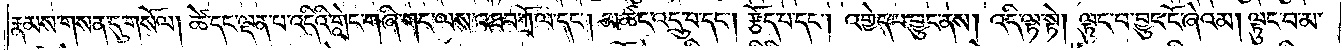རྣམས་གསན་དུ་གསོལ། ཚེ་དང་ལྡན་པ་འདིའི་གླེང་གཞི་གང་ལས་འཐབ་ཀྲོལ་དང༌། མཚང་འདྲུ་བ་དང༌། རྩོད་པ་དང༌། འགྱེད་པ་བྱུང་ནས། འདི་ལྟ་སྟེ། ལྟུང་བ་བྱུང་ངོ་ཞེའམ། ལྟུང་བ་མ་
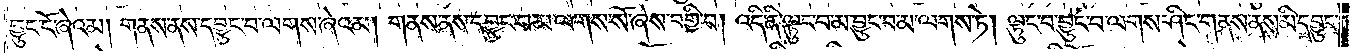བྱུང་ངོ་ཞེའམ། གནས་ནས་དབྱུང་བ་ལགས་ཞེའམ། གནས་ནས་དབྱུང་བ་མ་ལགས་སོ་ཞེས་བགྱི་བ། འདི་ནི་ལྟུང་བ་མ་བྱུང་བ་མ་ལགས་ཏེ། ལྟུང་བ་བྱུང་བ་ལགས་ཤིང་གནས་ནས་མི་དབྱུང་
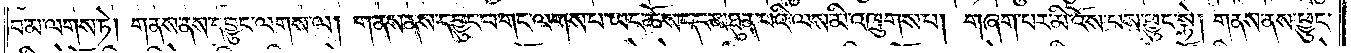བ་མ་ལགས་ཏེ། གནས་ནས་དབྱུང་ལགས་ལ། གནས་ནས་དབྱུང་བ་གང་ལགས་པ་ཡང་ཆོས་དང་མཐུན་པའི་ལས་མི་འཁྲུགས་པ། གཞག་པར་མི་འོས་པས་ཕྱུང་སྟེ། གནས་ནས་ཕྱུང་
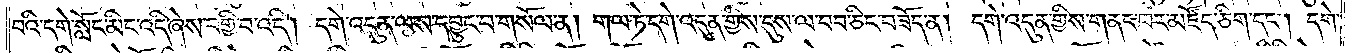བའི་དགེ་སློང་མིང་འདི་ཞེས་བགྱི་བ་འདི། དགེ་འདུན་ལས་དབྱུང་བ་གསོལ་ན། གལ་ཏེ་དགེ་འདུན་གྱིས་དུས་ལ་བབ་ཅིང་བཟོད་ན། དགེ་འདུན་གྱིས་གནང་བར་མཛོད་ཅིག་དང༌། དགེ་
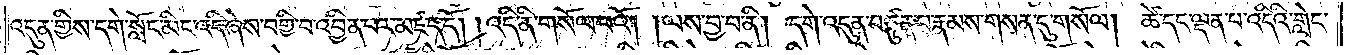འདུན་གྱིས་དགེ་སློང་མིང་འདི་ཞེས་བགྱི་བ་འབྱིན་པར་མཛད་དོ། །འདི་ནི་གསོལ་བའོ། །ལས་བྱ་བ་ནི། དགེ་འདུན་བཙུན་པ་རྣམས་གསན་དུ་གསོལ། ཚེ་དང་ལྡན་པ་འདིའི་གླེང་
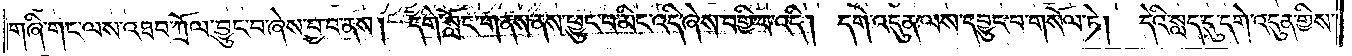གཞི་གང་ལས་འཐབ་ཀྲོལ་བྱུང་བ་ཞེས་བྱ་བ་ནས། དགེ་སློང་གནས་ནས་ཕྱུང་བ་མིང་འདི་ཞེས་བགྱི་བ་འདི། དགེ་འདུན་ལས་དབྱུང་བ་གསོལ་ཏེ།<gap>དེའི་སླད་དུ་དགེ་འདུན་གྱིས་
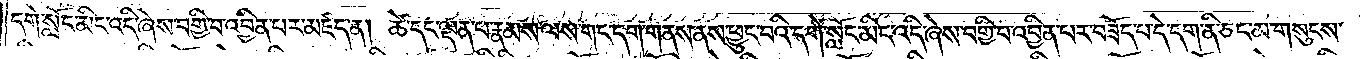དགེ་སློང་མིང་འདི་ཞེས་བགྱི་བ་འབྱིན་པར་མཛད་ན། ཚེ་དང་ལྡན་པ་རྣམས་ལས་གང་དག་གནས་ནས་ཕྱུང་བའི་དགེ་སློང་མིང་འདི་ཞེས་བགྱི་བ་འབྱིན་པར་བཟོད་པ་དེ་དག་ནི་ཅང་མ་གསུངས་
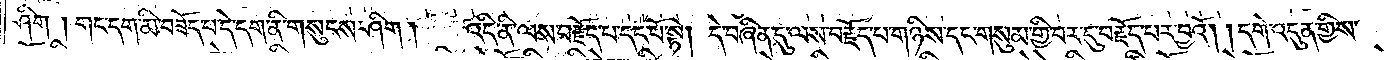ཤིག །གང་དག་མི་བཟོད་པ་དེ་དག་ནི་གསུངས་ཤིག  །འདི་ནི་ལས་བརྗོད་པ་དང་པོ་སྟེ། དེ་བཞིན་དུ་ལས་བརྗོད་པ་གཉིས་དང་གསུམ་གྱི་བར་དུ་བརྗོད་པར་བྱའོ། །དགེ་འདུན་གྱིས་
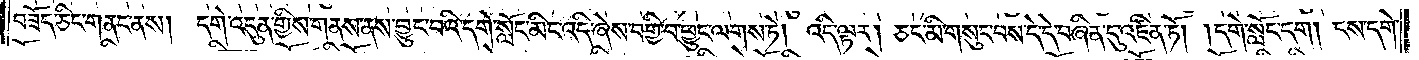བཟོད་ཅིང་གནང་ནས། དགེ་འདུན་གྱིས་གནས་ནས་བྱུང་བའི་དགེ་སློང་མིང་འདི་ཞེས་བགྱི་བ་ཕྱུང་ལགས་ཏེ། འདི་ལྟར། ཅང་མི་གསུང་བས་དེ་དེ་བཞིན་དུ་འཛིན་ཏོ། །དགེ་སློང་དག །ངས་དགེ་
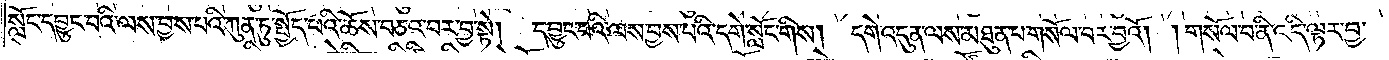སློང་དབྱུང་བའི་ལས་བྱས་པའི་ཀུན་ཏུ་སྤྱོད་པའི་ཆོས་བཅའ་བར་བྱ་སྟེ། དབྱུང་བའི་ལས་བྱས་པའི་དགེ་སློང་གིས། དགེ་འདུན་ལས་མཐུན་པ་གསོལ་བར་བྱའོ། །གསོལ་བ་ནི་འདི་ལྟར་བྱ་
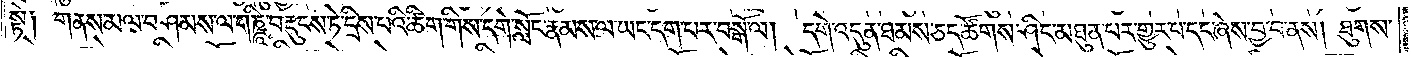སྟེ༑ གནས་མལ་བཤམས་ལ་གཎྜཱི་བརྡུངས་ཏེ་དྲིས་པའི་ཚིག་གིས་དགེ་སློང་རྣམས་ལ་ཡང་དག་པར་བསྒོ་ལ། དགེ་འདུན་ཐམས་ཅད་ཚོགས་ཤིང་མཐུན་པར་གྱུར་པ་དང་ཞེས་བྱ་བ་ནས། ཐུགས་
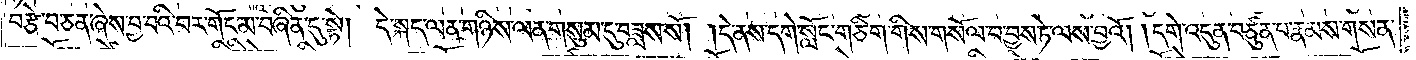བརྩེ་བ་ཅན་ཞེས་བྱ་བའི་བར་གོང་མ་བཞིན་དུ་སྟེ། དེ་སྐད་ལན་གཉིས་ལན་གསུམ་དུ་བཟླས་སོ། །དེ་ནས་དགེ་སློང་གཅིག་གིས་གསོལ་བ་བྱས་ཏེ་ལས་བྱའོ། །དགེ་འདུན་བཙུན་པ་རྣམས་གསན་
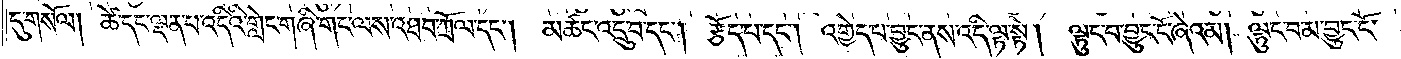དུ་གསོལ། ཚེ་དང་ལྡན་པ་འདིའི་གླེང་གཞི་གང་ལས་འཐབ་ཀྲོལ་དང༌། མཚང་འདྲུ་བ་དང༌། རྩོད་པ་དང༌། འགྱེད་པ་བྱུང་ནས་འདི་ལྟ་སྟེ། ལྟུང་བ་བྱུང་ངོ་ཞེའམ། ལྟུང་བ་མ་བྱུང་ངོ་
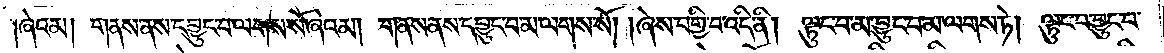།ཞེའམ། གནས་ནས་དབྱུང་བ་ལགས་སོ་ཞེའམ། གནས་ནས་དབྱུང་བ་མ་ལགས་སོ། །ཞེས་བགྱི་བ་འདི་ནི། ལྟུང་བ་མ་བྱུང་བ་མ་ལགས་ཏེ། ལྟུང་བ་བྱུང་བ་
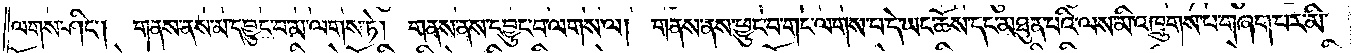ལགས་ཤིང༌། གནས་ནས་མ་དབྱུང་བ་མ་ལགས་ཏེ། གནས་ནས་དབྱུང་བ་ལགས་ལ། གནས་ནས་ཕྱུང་བ་གང་ལགས་པ་དེ་ཡང་ཆོས་དང་མཐུན་པའི་ལས་མི་འཁྲུགས་པ་གཞག་པར་མི་
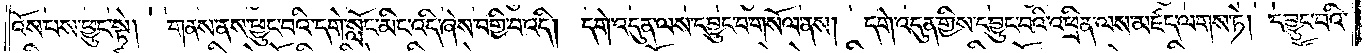འོས་པས་ཕྱུང་སྟེ། གནས་ནས་ཕྱུང་བའི་དགེ་སློང་མིང་འདི་ཞེས་བགྱི་བ་འདི། དགེ་འདུན་ལས་དབྱུང་བ་གསོལ་ནས། དགེ་འདུན་གྱིས་དབྱུང་བའི་འཕྲིན་ལས་མཛད་ལགས་ཏེ། དབྱུང་བའི་
